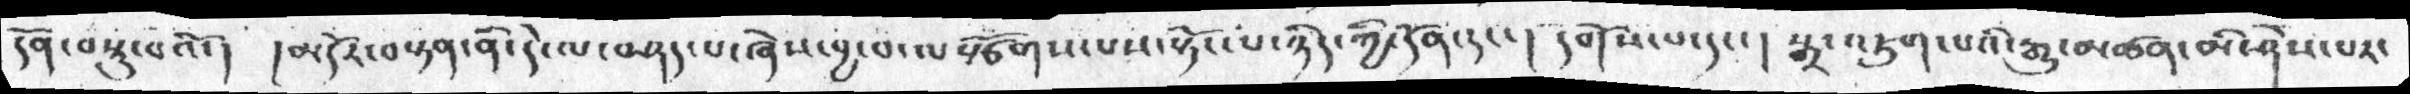དོན་བསྡུ་བའོ་།  །མདོར་བསྟན་ནི་དེ་ལ་བཤད་པ་ཞེས་བྱ་བ་ལསྩོགས་པས་སྟོང་པ་ཉིད་ཀྱི་དོན་དང་།  དགོས་པ་དང་།  སྒྲ་འཇུག་པའི་རྒྱུ་མཚན་མི་ཤེས་པར་
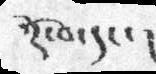སྔོ་བ་དང་།
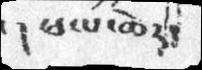།  ཕལ་ཆེར།
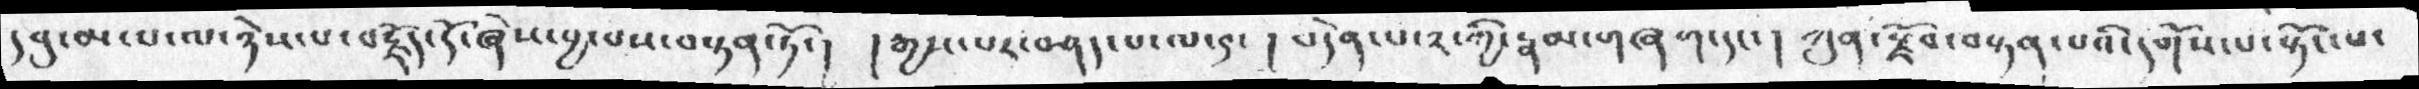དབུ་མ་པ་ལ་ཉེས་པ་བརྗོད་དོ་ཞེས་བྱ་བས་བསྟན་ཏོ་།  །རྒྱས་པར་བཤད་པ་ལ་༩་།  བདེན་པ་༢་ཀྱི་རྣམ་གཞག་དང་། ཀུན་རྫོབ་བསྟན་པའི་དགོས་པ་སྟོང་པ་
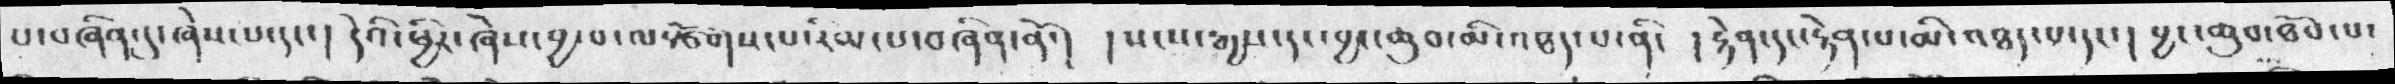པ་བཞིན་དུ་ཞེས་པ་དང་། དེའི་ཕྱིར་ཞེས་བྱ་བ་ལསྩོགས་པ་རིམ་པ་བཞིན་ནོ་།  །སངས་རྒྱས་དང་བྱང་ཆུབ་མི་འཐད་པ་ནི་། །རྟེན་དང་རྟེན་པ་མི་འཐད་པ་དང་། བྱང་ཆུབ་ཐོབ་པ་
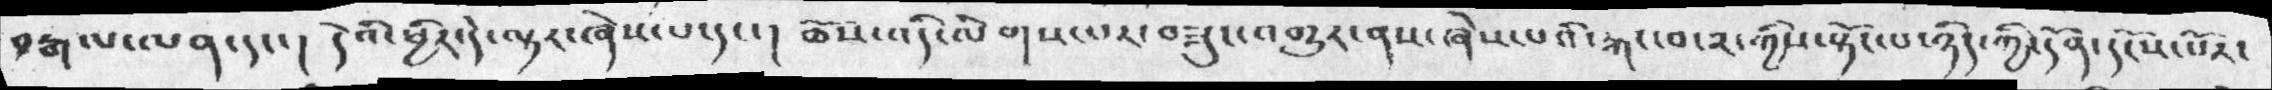བརྒལ་ལན་དང་།  དེའི་ཕྱིར་དེ་ལྟར་ཞེས་པ་དང་།  ཆོས་འདི་ལེགས་པར་བཟུང་འགྱུར་ནས་ཞེས་པའི་རྐང་བ་༢་ཀྱིས་སྟོང་པ་ཉིད་ཀྱི་དོན་དངོས་པོར་
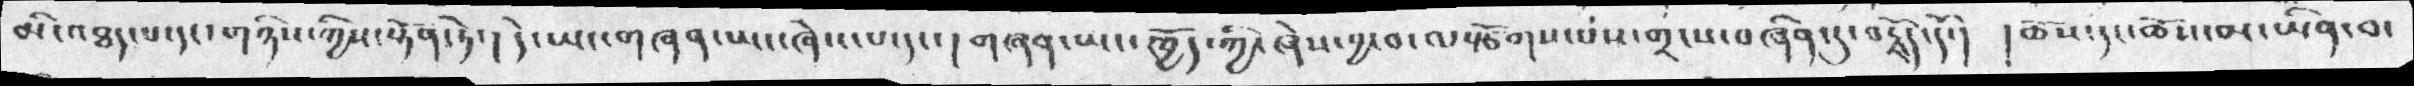མི་འཐད་པ་དང་གཉིས་ཀྱིས་སྟོན་ཏེ་། དེ་ཡང་གཞན་ཡང་ཞེས་པ་དང་།  གཞན་ཡང་ཁྱོད་ཀྱི་ཞེས་བྱ་བ་ལསྩོགས་པས་གྲངས་བཞིན་དུ་བརྗོད་དོ་། །ཆོས་དང་ཆོས་མ་ཡིན་བ་
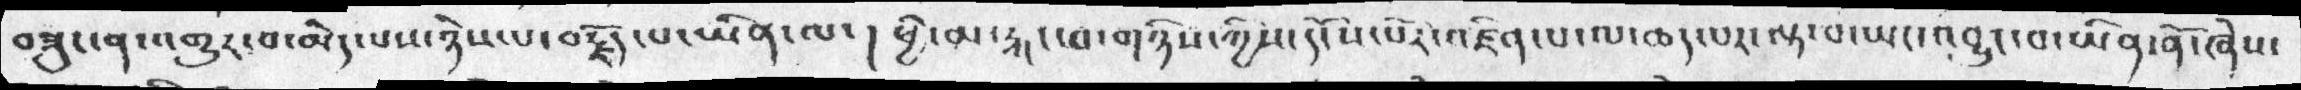བཟུང་ན་འགྱུར་བ་མེད་པས་ཉེས་པ་བརྗོད་པ་ཡིན་ལ་། ཕྱི་མ་རྐང་བ་གཉིས་ཀྱིས་དངོས་པོར་འཛིན་པ་ལ་ཆད་པར་ལྟ་བ་ཡང་འབྱུང་བ་ཡིན་ནོ་ཞེས་
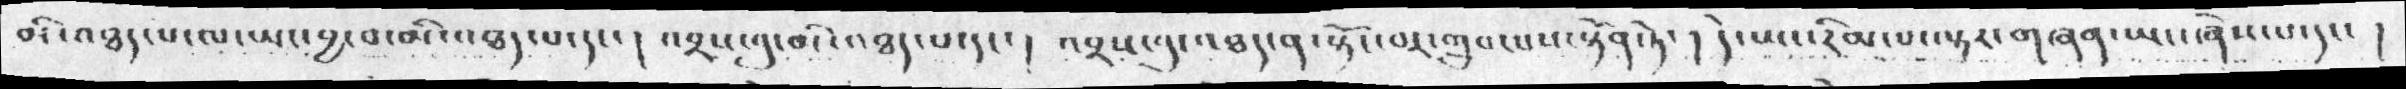མི་འཐད་པ་ལ་ཡང་བྱ་བ་མི་འཐད་པ་དང་། འབྲས་བུ་མི་འཐད་པ་དང་།  འབྲས་བུ་འཐད་ན་སྟོང་བར་གྲུབ་པས་སྟོན་ཏེ་། དེ་ཡང་རིམ་པ་ལྟར་གཞན་ཡང་ཞེས་པ་དང་ །
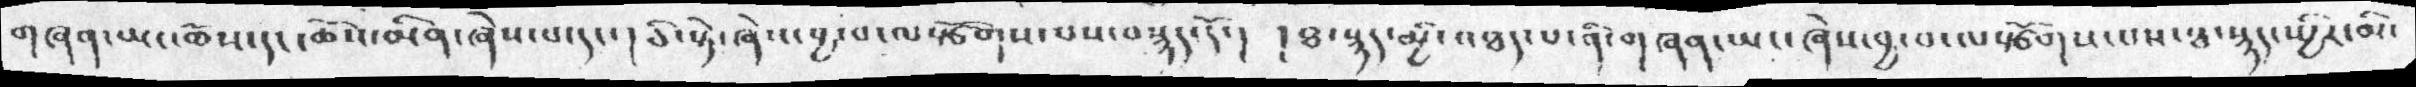གཞན་ཡང་ཆོས་དང་ཆོས་མིན་ཞེས་པ་དང་། ཅི་སྟེ་ཞེས་བྱ་བ་ལསྩོགས་པས་བསྙད་དོ་། །ཐ་སྙད་མྱི་འཐད་པ་ནི་གཞན་ཡང་ཞེས་བྱ་བ་ལསྩོགས་པས་ཐ་སྙད་སྤྱིར་མི་
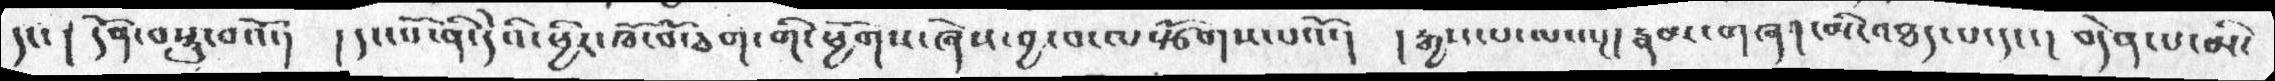དང་།  དོན་བསྡུ་བའོ་།  །དང་པོ་ནི་དེའི་ཕྱིར་ཁོ་བོ་ཅག་གི་ཕྱོགས་ཞེས་བྱ་བ་ལསྩོགས་པའོ་།  །རྒྱས་པ་ལ་ལྔ། རྣམ་གཞད་མི་འཐད་པ་དང་། བདེན་པ་མི་
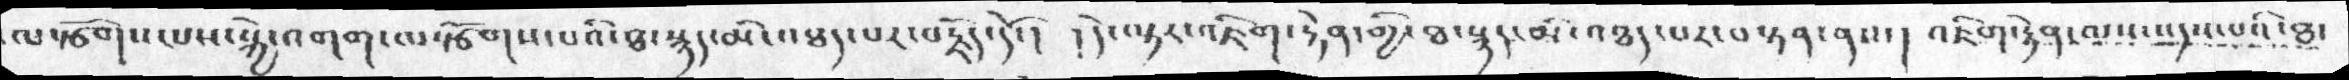ལསྩོགས་པས་སྐྱེ་འགག་ལསྩོགས་པའི་ཐ་སྙད་མི་འཐད་པར་བརྗོད་དོ་།  །དེ་ལྟར་འཇིག་རྟེན་གྱི་ཐ་སྙད་མི་འཐད་པར་བསྟན་ནས་། འཇིག་རྟེན་ལས་འདས་པའི་ཐ་
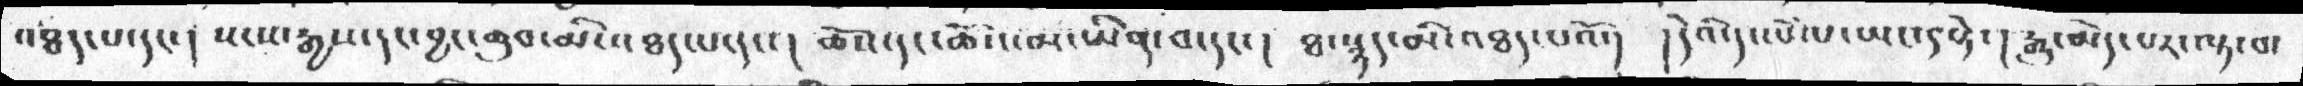འཐད་པ་དང་། སངས་རྒྱས་དང་བྱང་ཆུབ་མི་འཐད་པ་དང་།  ཆོས་དང་ཆོས་མ་ཡིན་བ་དང་།  ཐ་སྙད་མི་འཐད་པའོ་།  །དེའི་དང་པོ་ཡང་༩་སྟེ་། རྒྱུ་མེད་པར་ལྟ་བ་
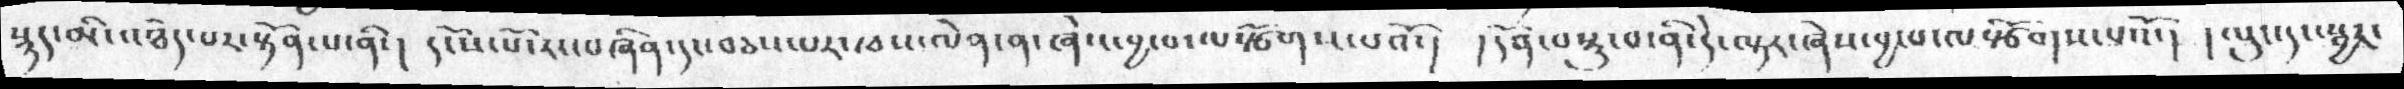སྙད་མི་འཐད་པར་སྟོན་པ་ནི་། དངོས་པོ་རང་བཞིན་དང་བཅས་པར་ཁས་ལེན་ན་ཞེས་བྱ་བ་ལསྩོགས་པའོ་།  །དོན་བསྡུ་བ་ནི་དེ་ལྟར་ཞེས་བྱ་བ་ལསྩོགས་པའོ་། །ལུང་དང་སྦྱར་
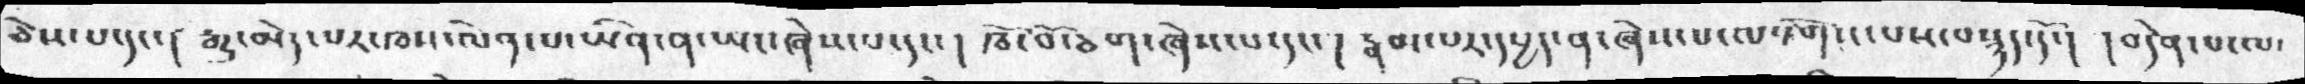ཅེས་པ་དང་། རྒྱུ་མེད་པར་ལཁས་ལེན་པ་ཡིན་ན་ཡང་ཞེས་པ་དང་། ཁོ་བོ་ཅག་ཞེས་པ་དང་། རྣམ་པར་དཔྱད་ན་ཞེས་པ་ལསྩོགས་པས་བསྙད་དོ་། །བདེན་པ་ལ་
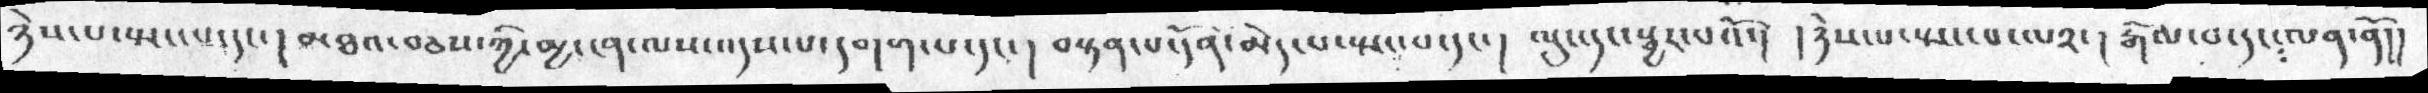ཉེས་པ་སྤང་པ་དང་།  མཐའ་བཅས་ཀྱི་མྱ་ངན་ལས་འདས་པ་དགག་པ་དང་།  བསྟན་པ་དོན་མེད་པ་སྤང་པ་དང་། ལུང་དང་སྦྱར་པའོ་། །ཉེས་པ་སྤང་པ་ལ༢་། རྒོལ་བ་དང་ལན་ནོ།།
